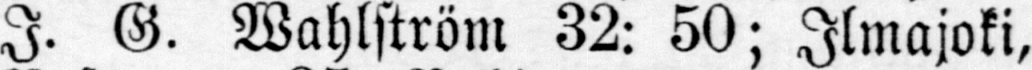I. G. Wahlström 32: 50; Ilmajoki,
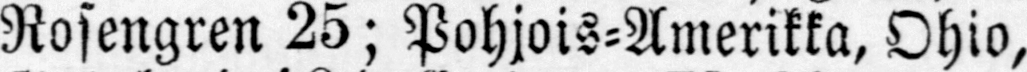Rosengren 25; Pohjois-Amerikka, Ohio,
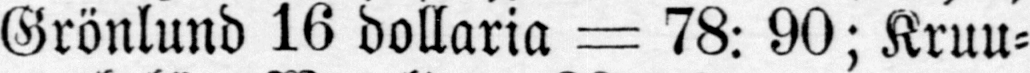Grönlund 16 dollaria — 78: 90; Kruu-
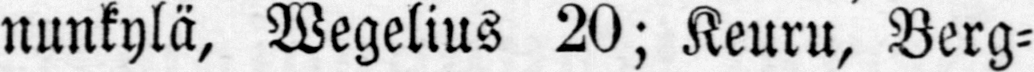nunkylä, Wegelius 20; Keuru, Berg-
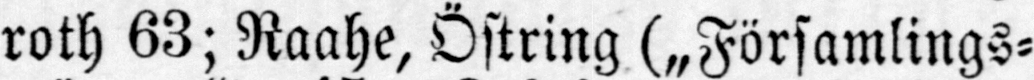roth 63; Raahe, Östring („Församlings-
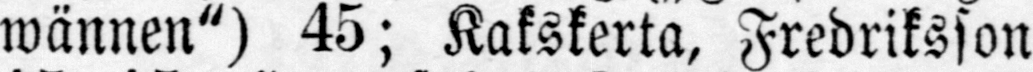wännen") 45; Kakskerta, Fredriksson
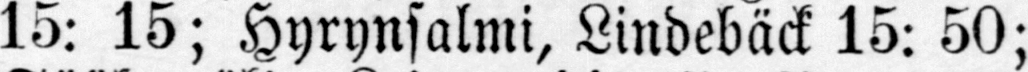15: 15; Hyrynsalmi, Lindebäck 15: 50;
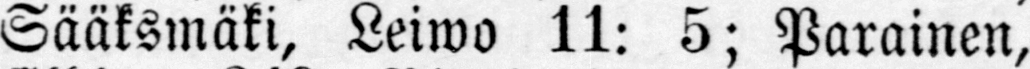Sääksmäki, Leiwo 11: 5; Parainen,
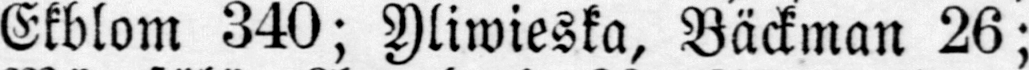Ekblom 340; Yliwieska, Bäckman 26;
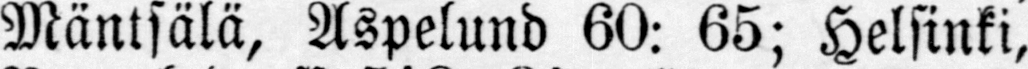Mäntsälä, Aspelund 60: 65; Helsinki,
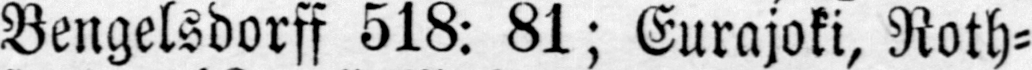Bengelsdorff 518: 81; Eurajoki, Roth-
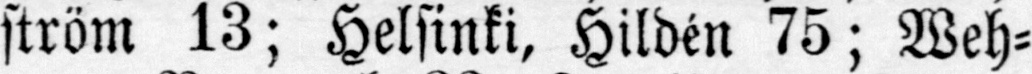ström 13; Helsinki, Hildén 75; Weh-
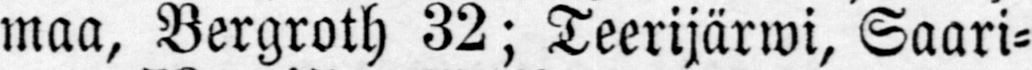maa, Bergroth 32; Teerijärwi, Saari-
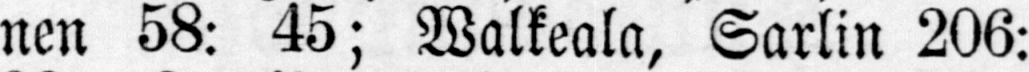nen 58: 45; Walkeala, Sarlin 206:
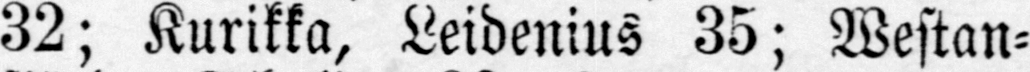32; Kurikka, Leidenius 35; Westan-
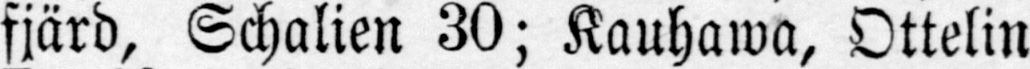fjärd, Schalien 30; Kauhawa, Ottelin
